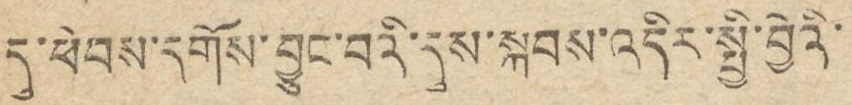དུ་ཕེབས་དགོས་བྱུང་བའི་དུས་སྐབས་འདིར་སྤྱི་བྱེའི་
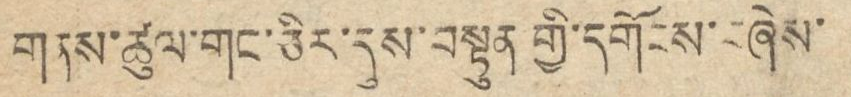གནས་ཚུལ་གང་ཅིར་དུས་བསྟུན་གྱི་དགོངས་བཞེས་
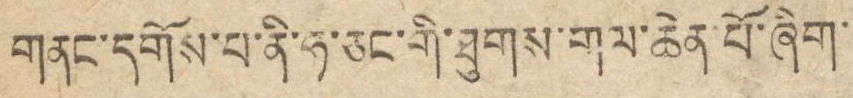གནང་དགོས་པ་ནི་ཧ་ཅང་གི་ཐུགས་གལ་ཆེན་པོ་ཞིག་
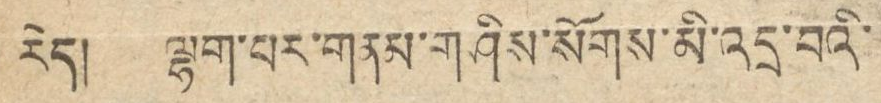རེད། ལྷག་པར་གནམ་གཤིས་སོགས་མི་འདྲ་བའི་
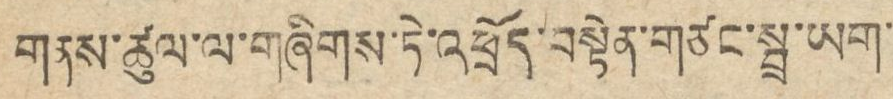གནས་ཚུལ་ལ་གཞིགས་ཏེ་འཕྲོད་བསྟེན་གཙང་སྦྲ་ཡག་
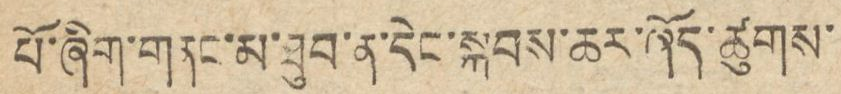པོ་ཞིག་གནང་མ་ཐུབ་ན་དེང་སྐབས་ཆར་ཞོད་ཚུགས་
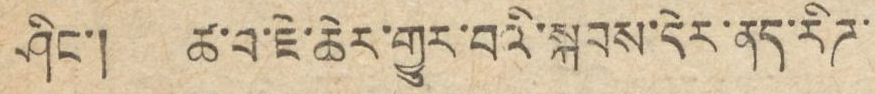ཤིང་། ཚ་བ་ཇེ་ཆེར་གྱུར་བའི་སྐབས་དེར་ནད་རིཌ་
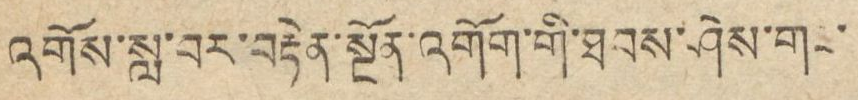འགོས་སླ་བར་བརྟེན་སྔོན་འགོག་གི་ཐབས་ཤེས་གང་
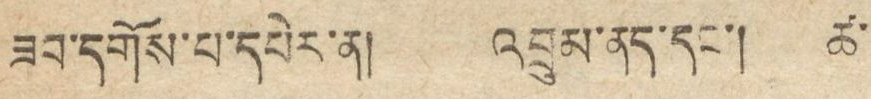ཟབ་དགོས་པ་དཔེར་ན། འབྲུམ་ནད་དང་། ཚ་
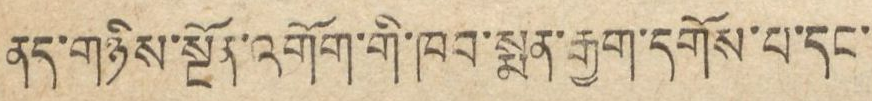ནད་གཉིས་སྔོན་འགོག་གི་ཁབ་སྨན་རྒྱག་དགོས་པ་དང་
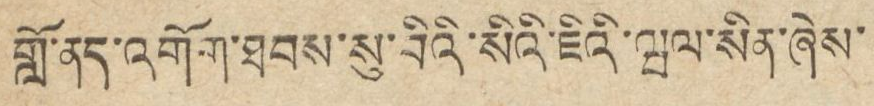གློ་ནད་འགོག་ཐབས་སུ་བིའི་སིའི་ཇིའི་ཝལ་སིན་ཞེས་
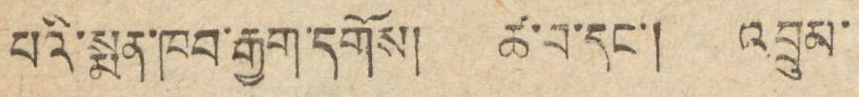པའི་སྨན་ཁབ་རྒྱག་དགོས། ཚ་བ་དང་། འབྲུམ་
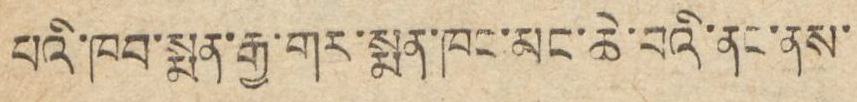པའི་ཁབ་སྨན་རྒྱ་གར་སྨན་ཁང་མང་ཆེ་བའི་ནང་ནས་
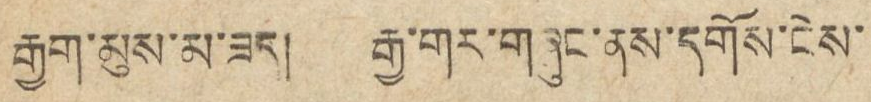རྒྱག་མུས་མ་ཟད། རྒྱ་གར་གཞུང་ནས་དགོས་ངེས་
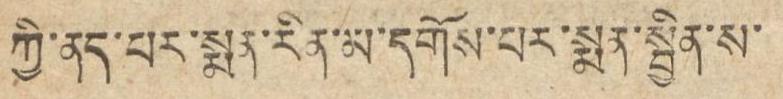ཀྱི་ནད་པར་སྨན་རིན་མ་དགོས་པར་སྨན་སྦྱིན་ས་
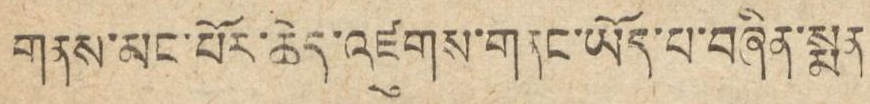གནས་མང་པོར་ཆེད་འཛུགས་གནང་ཡོད་པ་བཞིན་སྨན་
